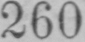260
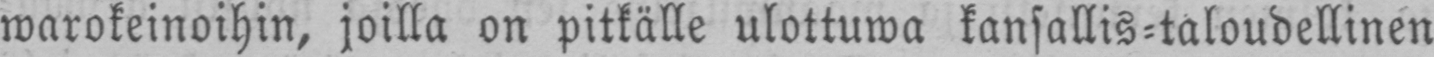warokeinoihin, joilla on pitkälle ulottuwa kansallis-taloudellinen
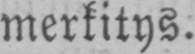merkitys.
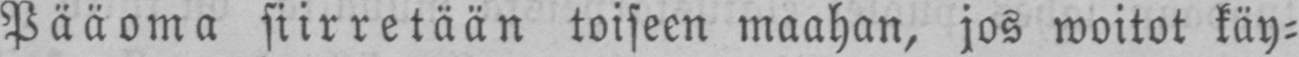Pääoma siirretään toiseen maahan, jos woitot käy-
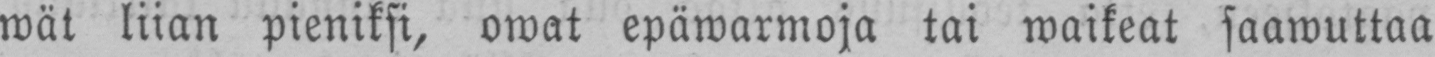wät liian pieniksi, owat epäwarmoja tai waikeat saawuttaa
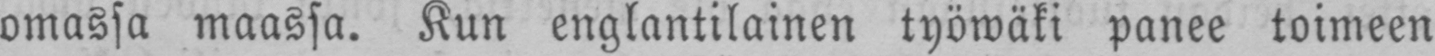omassa maassa. Kun englantilainen työwäki panee toimeen
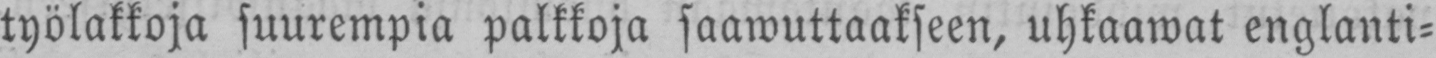työlakkoja suurempia palkkoja saawuttaakseen, uhkaawat englanti-
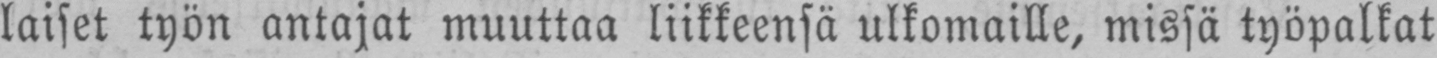laiset työn antajat muuttaa liikkeensä ulkomaille, missä työpalkat
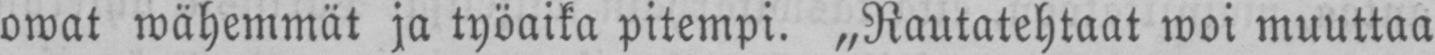owat wähemmät ja työaika pitempi. „Rautatehtaat woi muuttaa
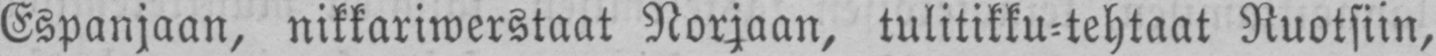Espanjaan, nikkariwerstaat Norjaan, tulitikku-tehtaat Ruotsiin,
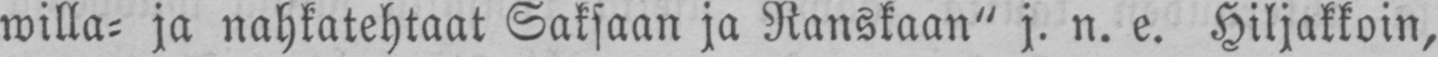willa- ja nahkatehtaat Saksaan ja Ranskaan" j. n. e. Hiljakkoin,
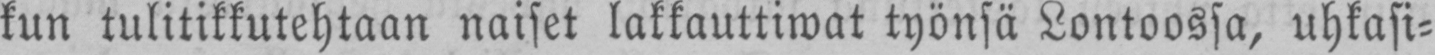kun tulitikkutehtaan naiset lakkauttiwat työnsä Lontoossa, uhkasi-
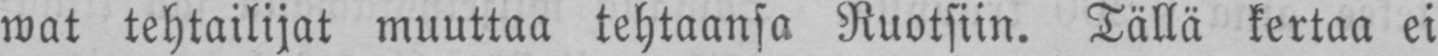wat tehtailijat muuttaa tehtaansa Ruotsiin. Tällä kertaa ei
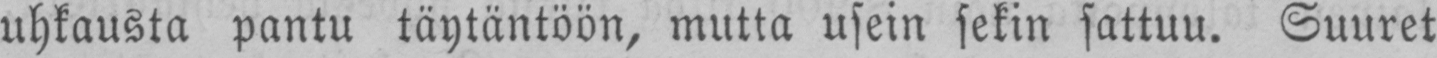uhkausta pantu täytäntöön, mutta usein sekin sattuu. Suuret
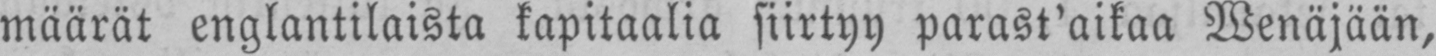määrät englantilaista kapitaalia siirtyy parast'aikaa Wenäjään,
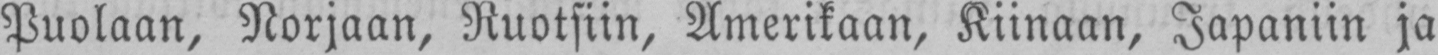Puolaan, Norjaan, Ruotsiin, Amerikaan, Kiinaan, Japaniin ja
